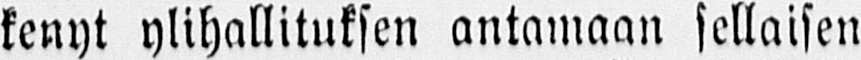kenyt ylihallituksen antamaan sellaisen
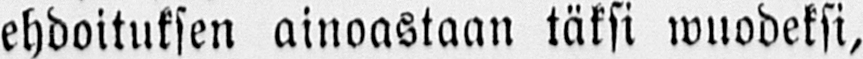ehdoituksen ainoastaan täksi wuodeksi,
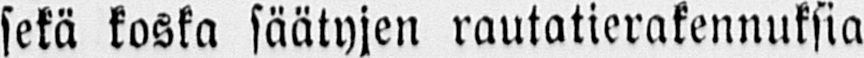sekä koska säätyjen rautatierakennuksia
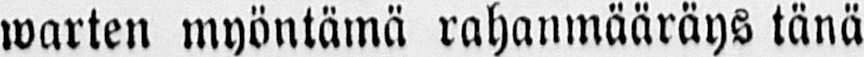warten myöntämä rahanmääräys tänä
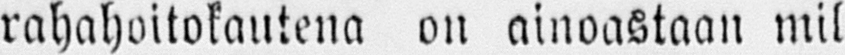rahahoitokautena on ainoastaan mil-
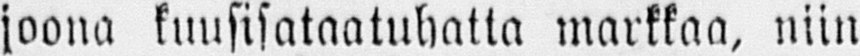joona kuusisataatuhatta markkaa, niin
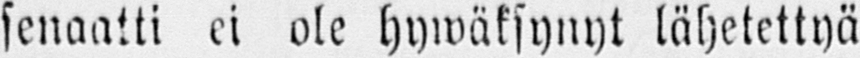senaatti ei ole hywäksynyt lähetettyä
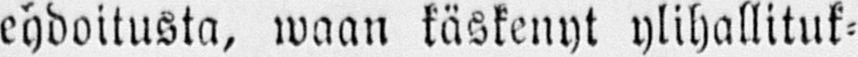ehdoitusta, waan käskenyt ylihallituk-
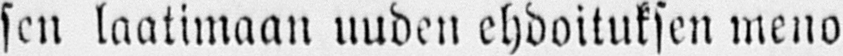sen laatimaan uuden ehdoituksen meno
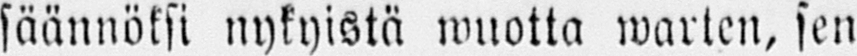säännöksi nykyistä wuotta warten, sen
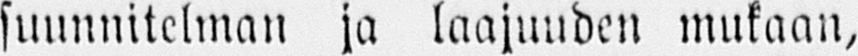suunnitelman ja laajuuden mukaan,
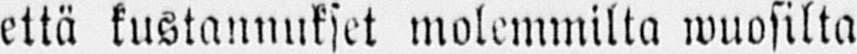että kustannukset molemmilta wuosilta
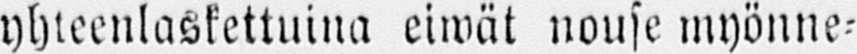yhteenlaskettuina eiwät nouse myönne-
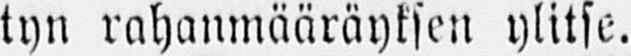tyn rahanmääräyksen ylitse.
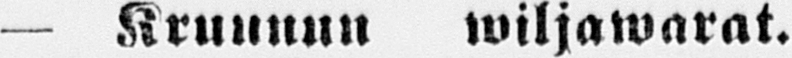— Kruunun wiljawarat.
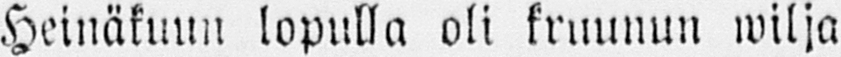Heinäkuun lopulla oli kruunun wilja-
